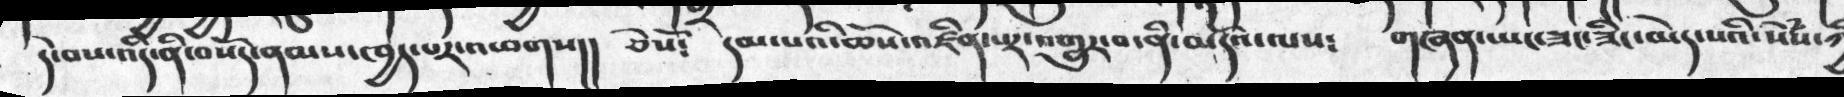དེ་བས་འདི་ནི་བསོད་ནམས་ཁྱད་བར་འཕགས།།   ཅེསོ༴   དམ་པའི་ཆོས་འཛིན་པར་འགྱུར་བ་ནི་མདོའ་ལས༴    གཞན་ཡང་ཟང་ཟིང་མེད་པའི་སེྃས་ཀྱི་
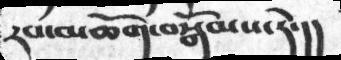རབ་མཆོག་བསྒོམས་དེ་།།
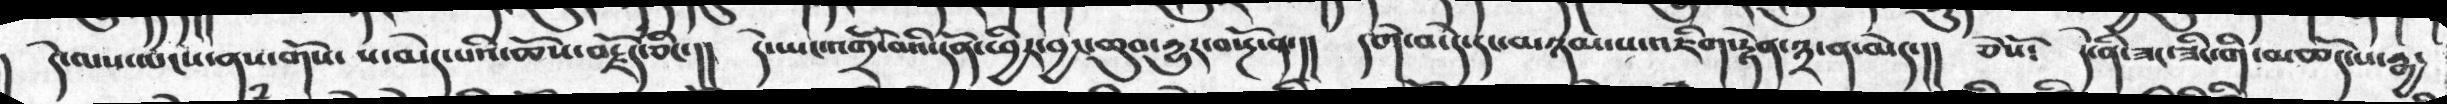དེ་ལས་ཡངས་ནས་གོས་པ་མེད་པའི་ཆོས་བརྗོད་ཅིང་།།  དེ་ཡང་འགྲོ་བའི་དོན་ཕྱིར་བྱང་ཆུབ་དྱུར་བསྔོ་ན་།།  དགེ་བ་དེ་དང་མཉམ་པ་འཇིག་རྟེན་༣་ན་མེད་།།  ཅེསོ༴   དེ་ནི་ཟང་ཟིང་གི་མཆོད་པ་རྒྱ་
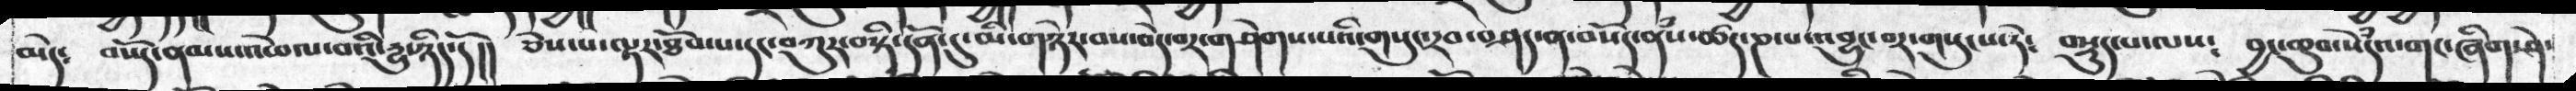མེད༴  བསོད་ནམས་འཕེལ་བའི་དྱུ་ཉིད་དོ།།   ཅེས་པ་ལྟར་ཐོབ་པ་དང་བཀུར་བསྟི་དོན་དུ་མི་གཉེར་བས་བདེ་བར་གཤེགས་པའི་གསུང་རབ་བཤད་ན་བསོད་ནཾས་ཚད་ཎ་པ་འབྱུང་བར་གསུངས་ཏེ༴   བསྡུད་པ་ལས༴   བྱང་ཆུབ་སེྃདའ་གང་ཞིག་ཤེས་
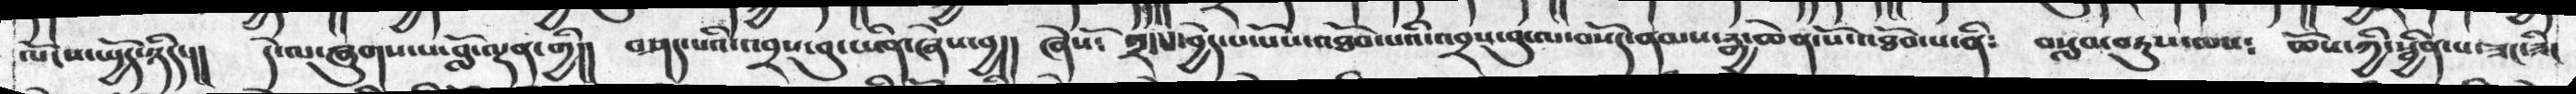ལོངས་ཡྱོད་ཉིད།།   དེ་ལ་ཞུགས་པ་བློ་ལྡན་གྱི།།   བཤད་པའི་འབྲས་བུ་ཡིན་ཞེས་བྱ།།   ཞེསོ༴   ༢་པ་བྱེད་པ་པོས་འཐོབ་པའི་འབྲས་བུ་ལ་བསོད་ནམས་རྒྱ་ཆེན་པོ་འཐོབ་པ་ནི༴    བསླབ་བཏུས་ལས༴   ཆོས་ཀྱི་སྦྱིན་པ་ཟང་ཟིང
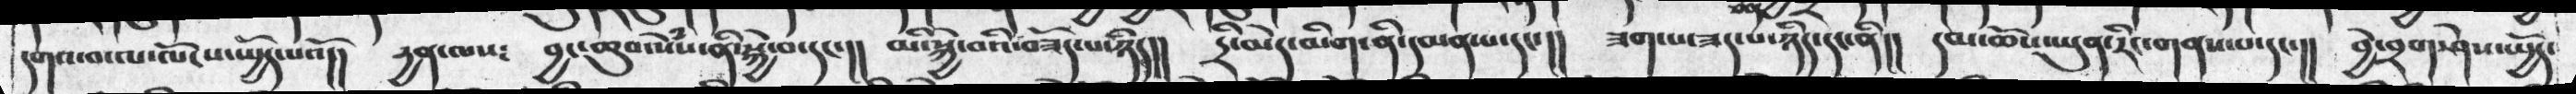དགའ་བ་ལ་ལོངས་ཡྱོད་པའོ།།   དྱནན་ལས༴   བྱང་ཆུབ་སེཾས་ནི་སྐྱེ་བ་དང་།།   མི་སྐྱེ་བའི་བཟོད་པ་ཉིད།།   དྲི་མེད་མིག་ནི་དམན་པ་དང་།།   ཟག་པ་ཟད་པ་ཉིད་དང་ནི།།   དམ་ཆོས་ཡུན་རིང་གནས་པ་དང་།།   བྱེ་བྲག་ཤེས་ཡྱོད་
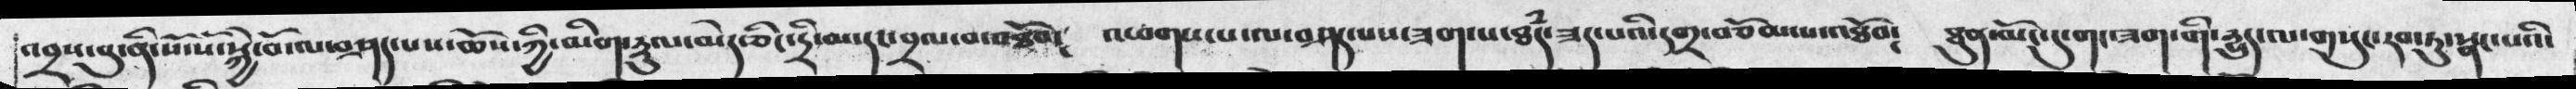འབྲས་བུ་ནི་སོ་སོ་སྐྱེ་བོ་ལ་བཤད་པས་ཆོས་ཀྱི་མིག་རྡུལ་མེད་ཅིང་དྲི་མ་དང་བྲལ་བ་འཐོབ༴  འཕགས་པ་ལ་བཤད་པས་ཟག་པ་ཐྃད་ཟད་པའི་དགྲ་བཅོམ་པ་འཐོབ༴   ཐུན་མོང་དུ་གང་ཟག་གི་རྱུད་ལ་གསུང་རབ་ཏུ་སྣང་པའི
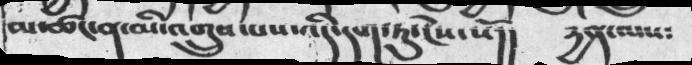མ་ཚང་ན་མི་འགྲུབ་པས་འདི་དག་ཏུ་ངེས་སོ།།    དྱན་ལས༴
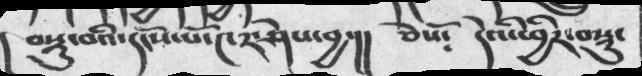བསྡུ་བའི་དངོས་པོ་༤༢་ཤེས་བྱ་།།     ཅེསོ༴     དེའི་ཕྱིར་བསྡུ་
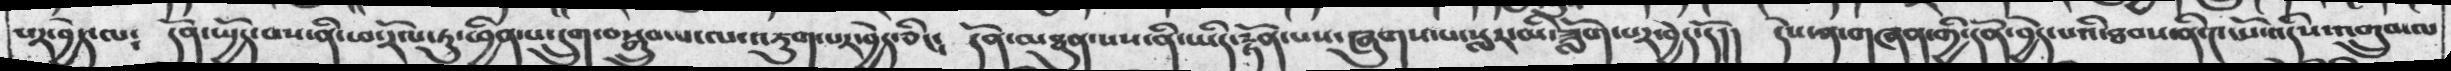པར་བྱེད༴    དོན་ཡྱོད་བས་ནི་ཕ་རོལ་ཏུ་ཕྱིན་པ་དྲུག་བསྒྲུབ་པ་ལ་བཇུག་པར་བྱེད་ཅིང༴  དོན་མཐུན་པས་ནི་ཡིད་རྟོན་པས་ཞུགས་པ་སླར་མི་ཟློག་པར་བྱེད་དོ།།    དེས་ན་གཞན་གྱི་དོན་བྱེད་པའི་ཐབས་ནི་༤་པོ་འདིས་འགྲུབ་ལ
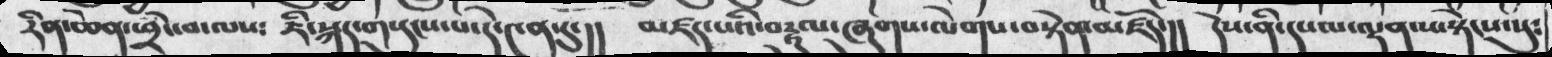རིན་ཆེན་ཕྲེང་བ་ལས༴   ཇི་སྐདད་གསུངས་པ་དེ་༤ན་དུ་།།    མཛད་པའི་བརྟུལ་ཞུགས་ལེགས་བསྟེན་མཛོད་།།    དེས་ནི་དཔལ་ལྡན་་ས་སྟེངས་སུ༴
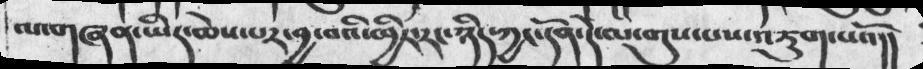ལ་གཞན་ཡིད་ཆེས་པར་བྱ་བའི་ཕྱིར་རང་ཉིད་ཀྱང་དོན་དེ་ལ་གུས་པས་འཇུག་པའོ།།
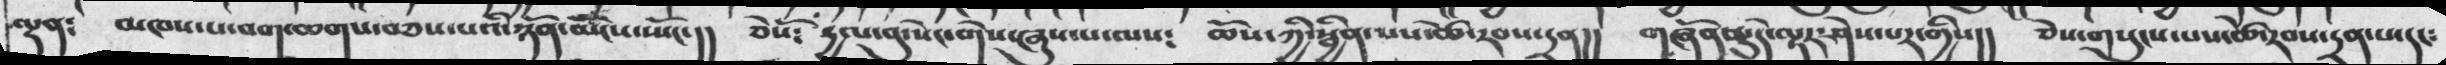ལྡན༴   མཁས་པ་བག་ཆགས་བཅས་པའི་ཉོན་མོངས་སྤོང་།།   ཅེསོ༴   དྱལ་བུ་སེང་གེས་ཞུས་པ་ལས༴   ཆོས་ཀྱི་སྦྱིན་པས་ཚེ་རབས་དྲན།།   གཞོ་ནུ་དེ་ལྟར་ཤེས་པར་གྱིས།།    ཅེས་གསུངས་པས་ཚེ་རབས་དྲན་པ་དང༴
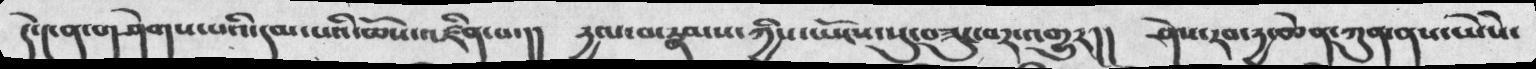དེ་༤ན་གཤེགས་པའི་དམ་པའི་ཆོས་འཛིན་པ་།།    དྱལ་བ་རྣམས་ཀྱིས་ཡོངས་སུ་བཟུང་བར་འགྱུར།།   ཤེས་རབ་དྱ་ཆེན་ཀུན་ནས་ཡེེས་
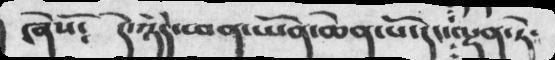ཞེསོ༴    དེ་ཉིད་ཕན་ཡོན་ཆེན་པོ་དང་ལྡན་ཏེ་
